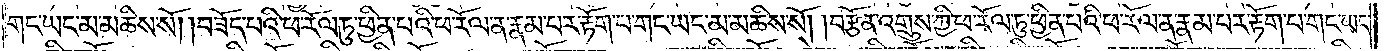གང་ཡང་མ་མཆིས་སོ། །བཟོད་པའི་ཕ་རོལ་ཏུ་ཕྱིན་པའི་ཕ་རོལ་ན་རྣམ་པར་རྟོག་པ་གང་ཡང་མ་མཆིས་སོ། །བརྩོན་འགྲུས་ཀྱི་ཕ་རོལ་ཏུ་ཕྱིན་པའི་ཕ་རོལ་ན་རྣམ་པར་རྟོག་པ་གང་ཡང་
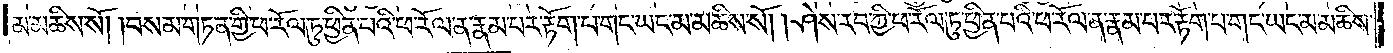མ་མཆིས་སོ། །བསམ་གཏན་གྱི་ཕ་རོལ་ཏུ་ཕྱིན་པའི་ཕ་རོལ་ན་རྣམ་པར་རྟོག་པ་གང་ཡང་མ་མཆིས་སོ། །ཤེས་རབ་ཀྱི་ཕ་རོལ་ཏུ་ཕྱིན་པའི་ཕ་རོལ་ན་རྣམ་པར་རྟོག་པར་གང་ཡང་མ་མཆིས་
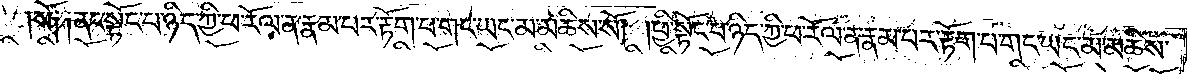སོ༑ ༑ནང་སྟོང་པ་ཉིད་ཀྱི་ཕ་རོལ་ན་རྣམ་པར་རྟོག་པ་གང་ཡང་མ་མཆིས་སོ། །ཕྱི་སྟོང་པ་ཉིད་ཀྱི་ཕ་རོལ་ན་རྣམ་པར་རྟོག་པ་གང་ཡང་མ་མཆིས་
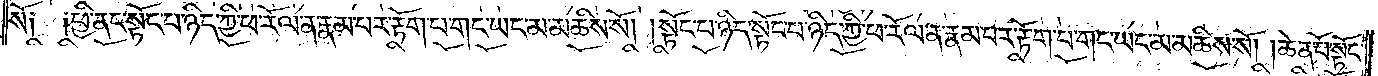སོ༑ ༑ཕྱི་ནང་སྟོང་པ་ཉིད་ཀྱི་ཕ་རོལ་ན་རྣམ་པར་རྟོག་པ་གང་ཡང་མ་མཆིས་སོ། །སྟོང་པ་ཉིད་སྟོང་པ་ཉིད་ཀྱི་ཕ་རོལ་ན་རྣམ་པར་རྟོག་པ་གང་ཡང་མ་མཆིས་སོ། །ཆེན་པོ་སྟོང་
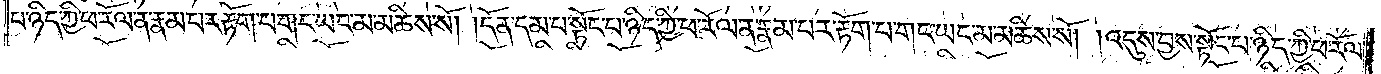པ་ཉིད་ཀྱི་ཕ་རོལ་ན་རྣམ་པར་རྟོག་པ་གང་ཡང་མ་མཆིས་སོ། །དོན་དམ་པ་སྟོང་པ་ཉིད་ཀྱི་ཕ་རོལ་ན་རྣམ་པར་རྟོག་པར་གང་ཡང་མ་མཆིས་སོ། །འདུས་བྱས་སྟོང་པ་ཉིད་ཀྱི་ཕ་རོལ་
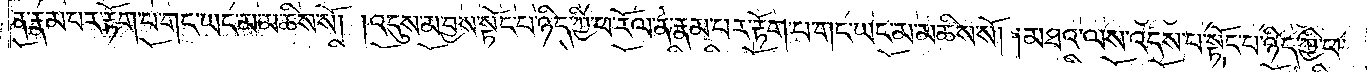ན་རྣམ་པར་རྟོག་པ་གང་ཡང་མ་མཆིས་སོ། །འདུས་མ་བྱས་སྟོང་པ་ཉིད་ཀྱི་ཕ་རོལ་ན་རྣམ་པར་རྟོག་པ་གང་ཡང་མ་མཆིས་སོ། །མཐའ་ལས་འདས་པ་སྟོང་པ་ཉིད་ཀྱི་ཕ་
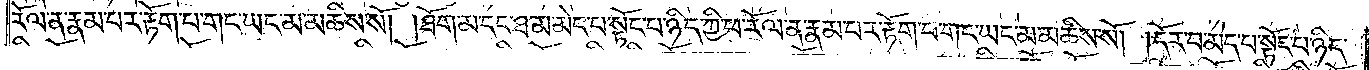རོལ་ན་རྣམ་པར་རྟོག་པ་གང་ཡང་མ་མཆིས་སོ། །ཐོག་མ་དང་ཐ་མ་མེད་པ་སྟོང་པ་ཉིད་ཀྱི་ཕ་རོལ་ན་རྣམ་པར་རྟོག་པ་གང་ཡང་མ་མཆིས་སོ། །དོར་བ་མེད་པ་སྟོང་པ་ཉིད་
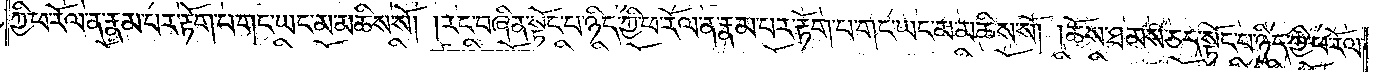ཀྱི་ཕ་རོལ་ན་རྣམ་པར་རྟོག་པ་གང་ཡང་མ་མཆིས་སོ། །རང་བཞིན་སྟོང་པ་ཉིད་ཀྱི་ཕ་རོལ་ན་རྣམ་པར་རྟོག་པ་གང་ ཡང་མ་མཆིས་སོ། །ཆོས་ཐམས་ཅད་སྟོང་པ་ཉིད་ཀྱི་ཕ་རོལ་
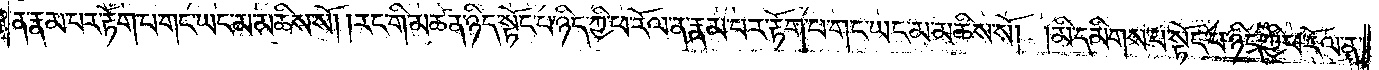ན་རྣམ་པར་རྟོག་པ་གང་ཡང་མ་མཆིས་སོ། །རང་གི་མཚན་ཉིད་སྟོང་པ་ཉིད་ཀྱི་ཕ་རོལ་ན་རྣམ་པར་རྟོག་པ་གང་ཡང་མ་མཆིས་སོ། །མི་དམིགས་པ་སྟོང་པ་ཉིད་ཀྱི་ཕ་རོལ་ན་
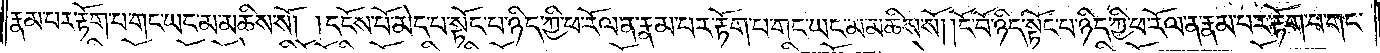རྣམ་པར་རྟོག་པ་གང་ཡང་མ་མཆིས་སོ། དངོས་པོ་མེད་པ་སྟོང་པ་ཉིད་ཀྱི་ཕ་རོལ་ན་རྣམ་པར་རྟོག་པ་གང་ཡང་མ་མཆིས་སོ། །ངོ་བོ་ཉིད་སྟོང་པ་ཉིད་ཀྱི་ཕ་རོལ་ན་རྣམ་པར་རྟོག་པ་གང་
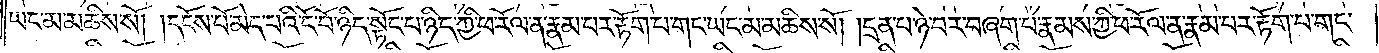ཡང་མ་མཆིས་སོ། །དངོས་པོ་མེད་པའི་ངོ་བོ་ཉིད་སྟོང་པ་ཉིད་ཀྱི་ཕ་རོལ་ན་རྣམ་པར་རྟོག་པ་གང་ཡང་མ་མཆིས་སོ། །དྲན་པ་ཉེ་བར་བཞག་པ་རྣམས་ཀྱི་ཕ་རོལ་ན་རྣམ་པར་རྟོག་པ་གང་
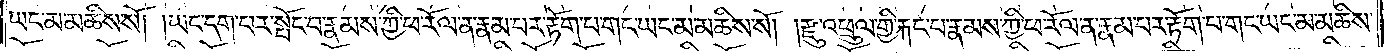ཡང་མ་མཆིས་སོ། །ཡང་དག་པར་སྤོང་བ་རྣམས་ཀྱི་ཕ་རོལ་ན་རྣམ་པར་རྟོག་པ་གང་ཡང་མ་མཆིས་སོ། །རྫུ་འཕྲུལ་གྱི་རྐང་པ་རྣམས་ཀྱི་ཕ་རོལ་ན་རྣམ་པར་རྟོག་པ་གང་ཡང་མ་མཆིས་
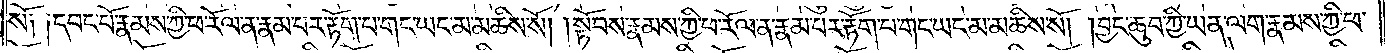སོ༑ ༑དབང་པོ་རྣམས་ཀྱི་ཕ་རོལ་ན་རྣམ་པར་རྟོག་པ་གང་ཡང་མ་མཆིས་སོ། །སྟོབས་རྣམས་ཀྱི་ཕ་རོལ་ན་རྣམ་པར་རྟོག་པ་གང་ཡང་མ་མཆིས་སོ། །བྱང་ཆུབ་ཀྱི་ཡན་ལག་རྣམས་ཀྱི་ཕ་
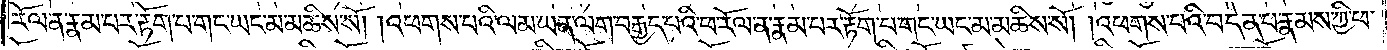རོལ་ན་རྣམ་པར་རྟོག་པ་གང་ཡང་མ་མཆིས་སོ། །འཕགས་པའི་ལམ་ཡན་ལག་བརྒྱད་པའི་ཕ་རོལ་ན་རྣམ་པར་རྟོག་པ་གང་ཡང་མ་མཆིས་སོ། །འཕགས་པའི་བདེན་པ་རྣམས་ཀྱི་ཕ་
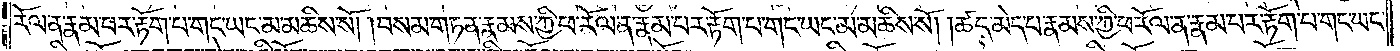རོལ་ན་རྣམ་པར་རྟོག་པ་གང་ཡང་མ་མཆིས་སོ། །བསམ་གཏན་རྣམས་ཀྱི་ཕ་རོལ་ན་རྣམ་པར་རྟོག་པ་གང་ཡང་མ་མཆིས་སོ། །ཚད་མེད་པ་རྣམས་ཀྱི་ཕ་རོལ་ན་རྣམ་པར་རྟོག་པ་གང་ཡང་
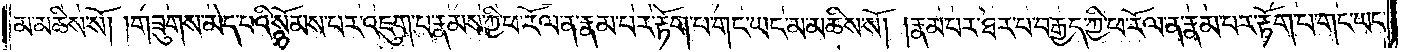མ་མཆིས་སོ། །གཟུགས་མེད་པའི་སྙོམས་པར་འཇུག་པ་རྣམས་ཀྱི་ཕ་རོལ་ན་རྣམ་པར་རྟོག་པ་གང་ཡང་མ་མཆིས་སོ། །རྣམ་པར་ཐར་པ་བརྒྱད་ཀྱི་ཕ་རོལ་ན་རྣམ་པར་རྟོག་པ་གང་ཡང་
